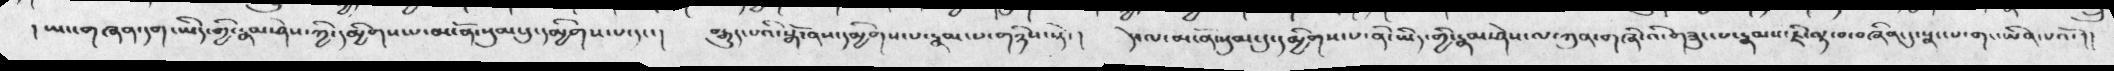། ཡང་གཞན་དག་ཡིད་གྱི་རྣམ་ཤེས་ཀྱི་དམྱིགས་པ་མངོན་སུམ་དུ་དམྱིགས་པ་དང་།    བརྒྱུད་པའི་སྒོ་ནས་དམྱིགས་པ་རྣམ་པ་གཉིས་སྟེ་།  དེ་ལ་མངོན་སུམ་དུ་དམྱིགས་པ་ནི་ཡིན་གྱི་རྣམ་ཤེས་ལ་ཀུན་གཞི་འི་གཟུང་པ་རྣམས་ཇི་ལྟ་བ་བཞིན་དུ་སྣང་པ་གང་ཡིན་པའོ་།།
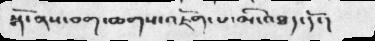སྒོ་ནས་བག་ཆགས་འཇོག་པ་མི་འཐད་དོ་།
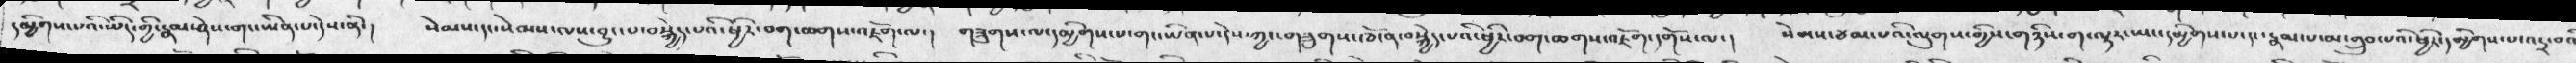དམྱིགས་པའི་ཡིད་གྱི་རྣམ་ཤེས་གང་ཡིན་པ་དེས་ནི་།     སེམས་དང་སེམས་ལས་བྱུང་པ་བསྐྱེད་པའི་ཕྱིར་བག་ཆགས་འཇོག་ལ་།   གཟུགས་ལ་དམྱིགས་པ་གང་ཡིན་པ་དེས་ཀྱང་གཟུགས་ཁོ་ན་བསྐྱེད་པའི་ཕྱིར་བག་ཆགས་འཇོག་དགོས་ལ་།   སེམས་ཙམ་པའི་ལུགས་གྱིས་གཉིས་ག་ལྟར་ཡང་དམྱིགས་པ་དང་རྣམ་པ་མ་གྲུབ་པའི་ཕྱིར་དམྱིགས་པ་འདྲ་བའི
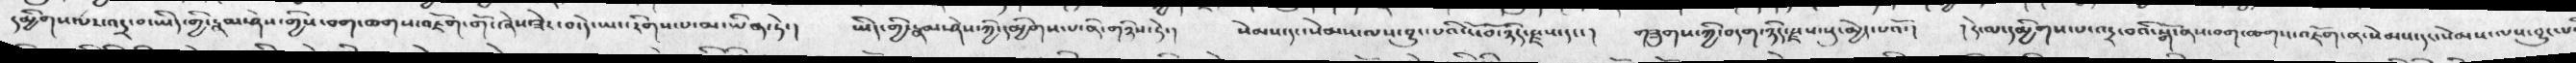དམྱིགས་པར་འདྲ་བ་ཡིད་གྱི་རྣམ་ཤེས་གྱིས་བག་ཆགས་འཇོག་གོ་ཞེས་ཟེར་བ་དེ་ཡང་རིགས་པ་མ་ཡིན་ཏེ་།   ཡིད་གྱི་རྣམ་ཤེས་ཀྱི་དམྱིགས་པ་ནི་གཉིས་ཏེ་།  སེམས་དང་སེམས་ལས་བྱུང་པའི་ངོ་བོ་ཉིད་རྫས་དང་།    གཟུགས་གྱི་བདག་ཉིད་རྫས་སུ་མྱེད་པའོ་།    དེ་ལ་དམྱིགས་པ་འདྲ་བའི་སྒོ་ནས་བག་ཆགས་འཇོག་ན་སེམས་དང་སེམས་ལས་བྱུང་པ
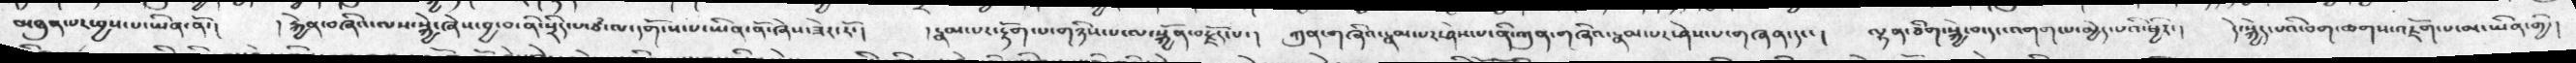མཐུན་པར་བྱས་པ་ཡིན་ནོ་།    ། རྐྱེན་བཞིའ་ལས་སྐྱེ་ཞེས་བྱ་བ་ནི་སྲིད་པ་ཙཾ་ལ་དགོངས་པ་ཡིན་ནོ་ཞེས་ཟེར་རོ་།   ། རྣམ་པར་རྟོག་པ་གཉིས་པ་ལ་སྐྱོན་བརྗོད་པ་།    ཀུན་གཞིའ་རྣམ་པར་ཤེས་པ་ནི་ཀུན་གཞིའ་རྣམ་པར་ཤེས་པ་གཞན་དང་ །  ལྷན་ཅིག་སྐྱེ་བ་དང་འགག་པ་མྱེད་པའི་ཕྱིར་།   དེ་སྐྱེད་པའི་བག་ཆགས་འཇོག་པ་མ་ཡིན་གྱི་།
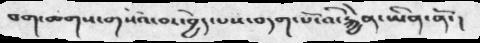བག་ཆགས་གསོའ་བར་བྱེད་པས་བདག་པོ་འི་རྐྱེན་ཡིན་ནོ་།
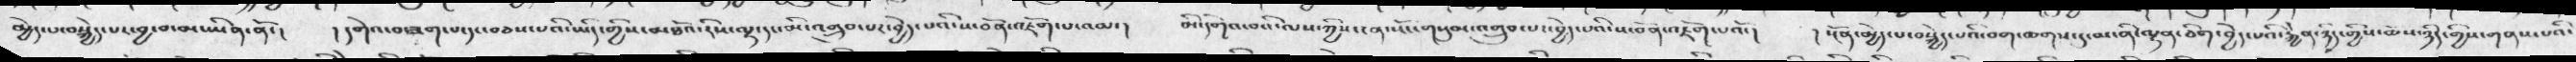མྱེད་པ་བསྐྱེད་པར་བྱ་བ་མ་ཡིན་ནོ་།   ། དགེའ་བ་ཟག་པ་དང་བཅས་པའི་ཡིད་གྱིས་མཐོའ་རིས་ལྷ་དང་མི་འགྲུབ་པར་བྱེད་པའི་ས་བོན་འཇོག་པའམ་།  མི་དགེའ་བའི་ལས་ཀྱིས་ངན་སོང་གསུམ་འགྲུབ་པར་བྱེད་པའི་ས་བོན་འཇོག་པའོ་།  ། སྔོན་མྱེད་པ་བསྐྱེད་པའི་བག་ཆགས་དུ་མ་ནི་ལྷན་ཅིག་བྱེད་པའི་རྐྱེན་ཉིད་གྱིས་ཆོས་ཉིད་གྱིས་གནས་པའི་
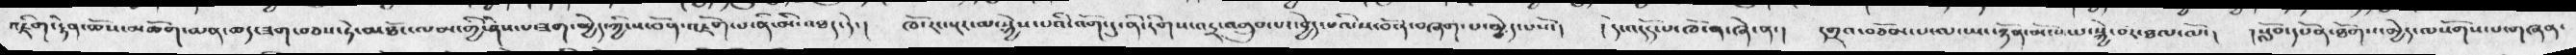འཇིག་རྟེན་ཆོས་མཆོག་མན་ཆད་ཟག་བཅས་ཏེ་མཐོང་ལམ་གྱི་ཤེས་པ་ཟག་མྱེད་ཀྱི་ས་བོན་འཇོག་པ་ནི་མི་འཐད་དེ་།  ཁོ་རང་སྔར་མ་སྐྱེས་པའི་འོག་དུ་ནི་རིགས་འདྲ་འགྲུབ་པ་བྱེད་པའི་ས་བོན་བཞག་པ་མྱེད་པ་འོ།  །དེ་འདོད་པ་ཁོ་ན་ཞེ་ན་།  དགྲ་བཅོམ་པ་ལ་ཡང་ཉོན་མོངས་པ་སྐྱེ་བར་ཐལ་ལོ་།  སློབ་དཔོན་ཐོགས་མྱེད་ལསོགས་པ་གཞན་
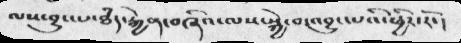ལས་བྱུང་པ་ཐཾད་རྐྱེན་བཞིའ་ལས་སྐྱེ་བ་འབྱུང་པའི་ཕྱིར་རོ་།
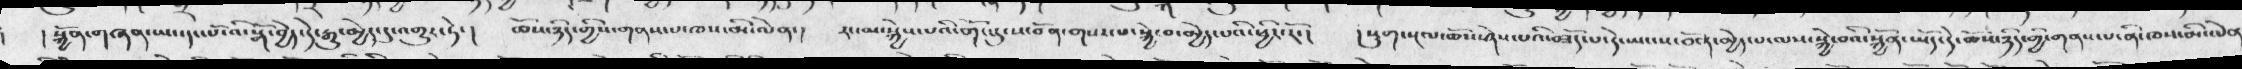སྐྱོན་གཞན་ཡང་དང་པོ་འི་སྒོ་བྱེད་དེ་རྒྱུ་མྱེད་དུ་འགྱུར་ཏེ་།   ཆོས་ཉིད་གྱིས་གནས་པ་ཁས་མི་ལེན་།  རང་མ་སྐྱེས་པའི་གོང་དུ་ས་བོན་གསར་པ་སྐྱེ་བ་མྱེད་པའི་ཕྱིར་རོ་།   །སྡུག་སྔལ་ཆོས་ཤེས་པའི་བཟོད་པ་དེ་ཡང་ས་བོན་མྱེད་པ་ལས་སྐྱེ་བའི་སྐྱོན་ཡོད་དེ་ཆོས་ཉིད་གྱི་གནས་པ་ནི་ཁས་མི་ལེན་
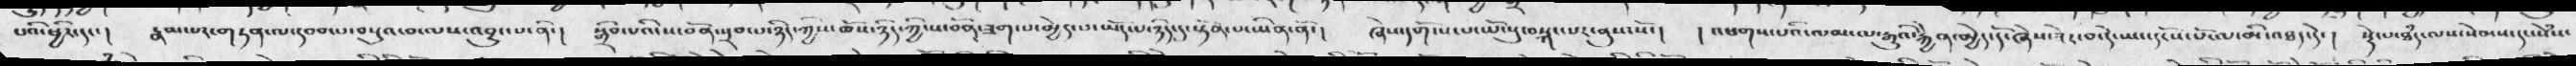པའི་ཕྱིར་དང་།   རྣམ་པར་གཏན་ལ་དབབ་པ་བསྡུའ་བ་ལས་འབྱུང་པ་ནི་།   སྒྲིབ་པའི་ས་བོན་སྲབ་པ་ཉིད་ཀྱིས་ཆོས་ཉིད་ཀྱི་ས་བོན་ཟག་པ་མྱེད་པ་ཡོད་པ་ཉིད་དུ་སྟོན་པ་ཡིན་ནོ་།  ཞེས་དགོས་པ་ཡོངསུ་བསྐང་པར་ནུས་སོ་།   །འཕགས་པའི་ལམ་ལ་རྒྱུའི་རྐྱེན་མྱེད་དོ་ཞེས་ཟེར་བ་དེ་ཡང་དངོས་པོ་ལ་མི་འཐད་དེ་།  སྡེ་པ་ཐཾད་ལས་སེམས་དང་སེམས་
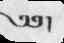༄༅།
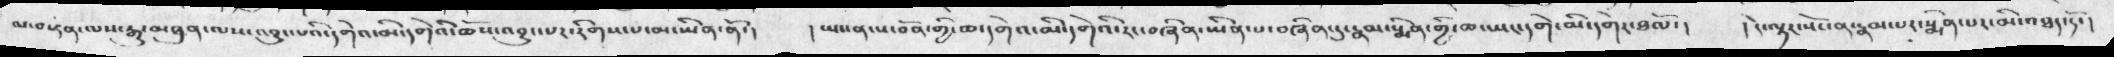མ་བསྟན་ལས་རྒྱུ་མཐུན་ལས་འབྱུང་པའི་དགེའ་མི་དགེའི་ཆོས་འབྱུང་པར་རིགས་པ་མ་ཡིན་ནོ་།    ། ཡང་ན་ས་བོན་གྱི་ཆ་དགེའ་མི་དགེའི་རང་བཞིན་ཡིན་པ་བཞིན་དུ་རྣམ་སྨིན་གྱི་ཆ་ཡང་དགེ་མི་དགེར་ཐལོ་།   ། དེ་ལྟར་སོང་ན་རྣམ་པར་སྨིན་པར་མི་འཐད་དོ་།
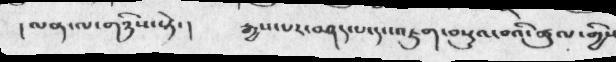། ལན་ལ་གཉིས་སྟེ་ །   རྒྱས་པར་བཤད་པ་དང་འཇུག་བསྡུའ་བའི་ཚུལ་གྱིས
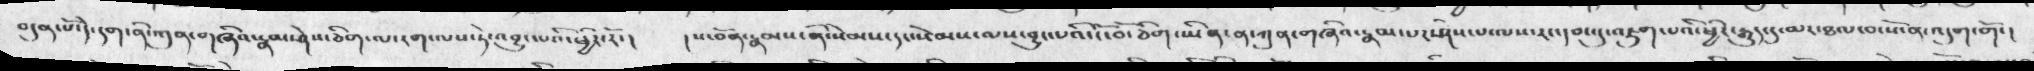བདུན་པོ་དེ་དག་ཀུན་གཞིའ་རྣམ་ཤེས་ཅིག་ལ་རག་ལས་ཏེ་འབྱུང་པའི་ཕྱིར་རོ་།   ། ས་བོན་རྣམས་ནི་སེམས་དང་སེམས་ལས་བྱུང་པའི་ངོ་བོ་ཅིག་ཡིན་ན་ཀུན་གཞིའ་རྣམ་པར་ཤེས་པ་ལས་རང་དབང་དུ་འཇུག་པའི་ཕྱིར་རྒྱུད་དུ་མར་ཐལ་བ་སོ་ན་འདུག་གོ་།
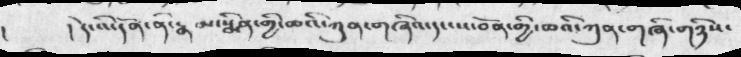།    ། དེ་འི་དོན་ནི་རྣམ་སྨིན་གྱི་ཆའི་ཀུན་གཞིའ་དང་ས་བོན་གྱི་ཆའི་ཀུན་གཞི་གཉིས་
